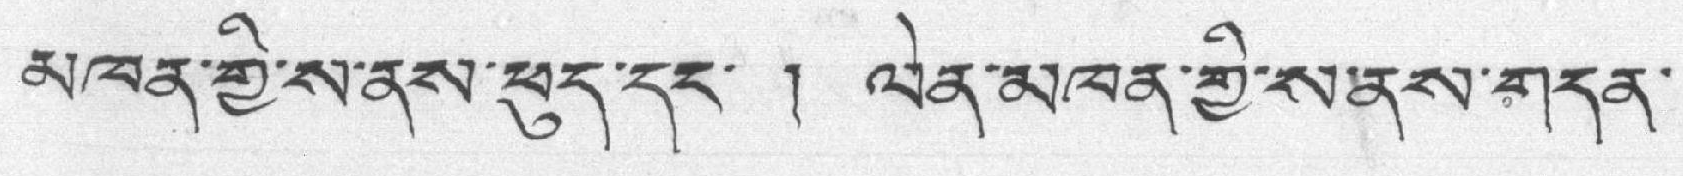མཁན་གྱི་ས་ནས་ཕུད་དང་ ། ལེན་མཁན་གྱི་ས་ནས་གདན་
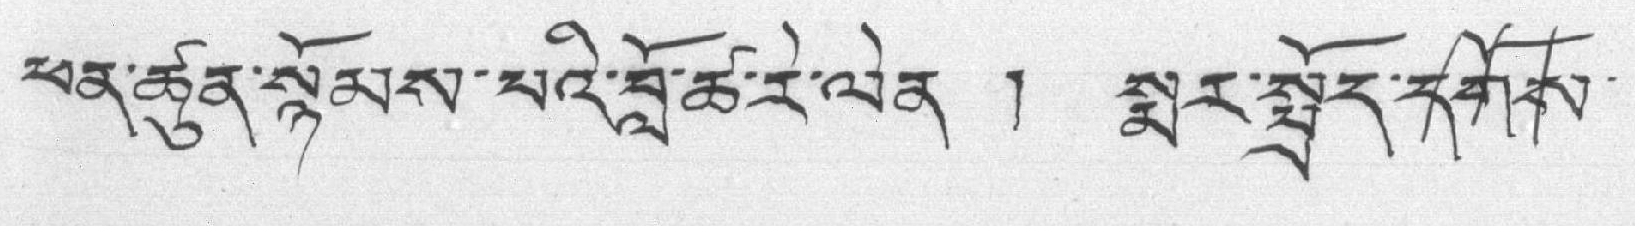ཕན་ཚུན་སྙོམས་པའི་བློ་ཚ་རེ་ལེན ། སྨར་སྤྲོད་དགོས་
